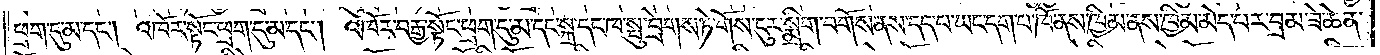ཕྲག་དུ་མ་དང༌། འཁོར་སྟོང་ཕྲག་དུ་མ་དང༌། འཁོར་བརྒྱ་སྟོང་ཕྲག་དུ་མ་དང་སྐྲ་དང་ཁ་སྦུ་བྲེགས་ཏེ་གོས་ངུར་སྨྲིག་བགོས་ནས་དད་པ་ཡང་དག་པ་ཁོ་ནས་ཁྱིམ་ནས་ཁྱིམ་མེད་པར་བྲམ་ཟེ་ཆེན་
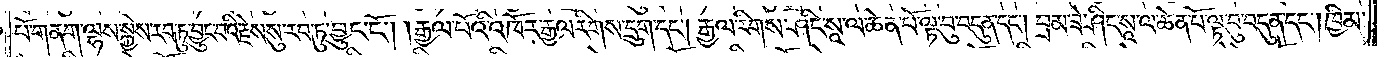པོ་གནག་ལྷས་སྐྱེས་རབ་ཏུ་བྱུང་བའི་རྗེས་སུ་རབ་ཏུ་བྱུང་ངོ༌། །རྒྱལ་པོའི་འཁོར་རྒྱལ་རིགས་དྲུག་དང༌། རྒྱལ་རིགས་ཤིང་སཱ་ལ་ཆེན་པོ་ལྟ་བུ་བདུན་དང༌། བྲམ་ཟེ་ཤིང་སཱ་ལ་ཆེན་པོ་ལྟ་བུ་བདུན་དང༌། ཁྱིམ་
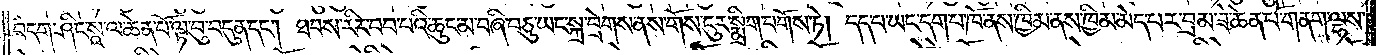བདག་ཤིང་སཱ་ལ་ཆེན་པོ་ལྟ་བུ་བདུན་དང༌། ཐབས་རིར་བབ་པའི་ཆུང་མ་བཞི་བཅུ་ཡང་སྐྲ་བྲེགས་ནས་གོས་ངུར་སྨྲིག་བགོས་ཏེ། དད་པ་ཡང་དག་པ་ཁོ་ནས་ཁྱིམ་ནས་ཁྱིམ་མེད་པར་བྲམ་ཟེ་ཆེན་པོ་གནག་ལྷས་
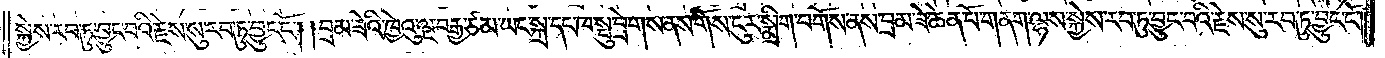སྐྱེས་རབ་ཏུ་བྱུང་བའི་རྗེས་སུ་རབ་ཏུ་བྱུང་ངོ༌། །བྲམ་ཟེའི་ཁྱེའུ་ལྔ་བརྒྱ་ཙམ་ཡང་སྐྲ་དང་ཁ་སྦུ་བྲེགས་ནས་གོས་ངུར་སྨྲིག་བགོས་ནས་བྲམ་ཟེ་ཆེན་པོ་གནག་ལྷས་སྐྱེས་རབ་ཏུ་བྱུང་བའི་རྗེས་སུ་རབ་ཏུ་བྱུང་ངོ༌། །
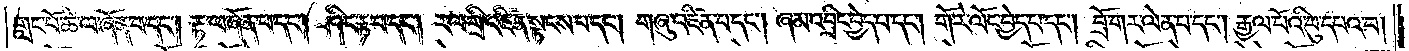གླང་པོ་ཆེ་ལ་ཞོན་པ་དང༌། རྟ་ལ་ཞོན་པ་དང༌། ཤིང་རྟ་པ་དང༌། རལ་གྲི་འཛིན་སྟངས་པ་དང༌། གཞུ་འཛིན་པ་དང༌། ཞམ་འབྲིང་བྱེད་པ་དང༌། གོ་རེ་ལོང་བྱེད་པ་དང༌། བྲོ་གར་ལེན་པ་དང༌། རྒྱལ་པོའི་བུ་དཔའ་བ།
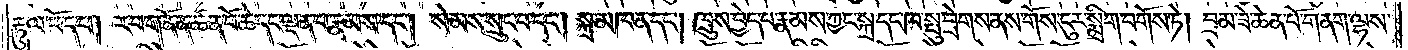རྟུལ་ཕོད་པ། རབ་གནོན་ཚན་པོ་ཆེ་དང་ལྡན་པ་རྣམས་དང༌། སེམས་སྲུང་བ་དང༌། སྐྲ་མཁན་དང༌། ཁྲུས་བྱེད་པ་རྣམས་ཀྱང་སྐྲ་དང་ཁ་སྤུ་བྲེགས་ནས་གོས་ངུར་སྨྲིག་བགོས་ཏེ། བྲམ་ཟེ་ཆེན་པོ་གནག་ལྷས་
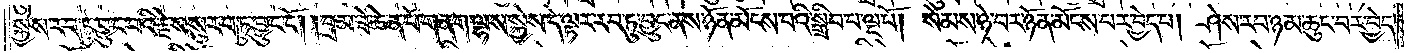སྐྱེས་རབ་ཏུ་བྱུང་བའི་རྗེས་སུ་རབ་ཏུ་བྱུང་ངོ༌། །བྲམ་ཟེ་ཆེན་པོ་གནག་ལྷས་སྐྱེས་དེ་ལྟར་རབ་ཏུ་བྱུང་ནས་ཉོན་མོངས་པའི་སྒྲིབ་པ་ལྔ་པོ། སེམས་ཉེ་བར་ཉོན་མོངས་པར་བྱེད་པ། ཤེས་རབ་ཉམ་ཆུང་བར་བྱེད་
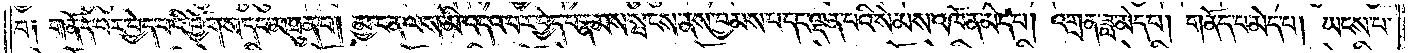པ། གནོད་པར་བྱེད་པའི་ཕྱོགས་དང་མཐུན་པ། མྱ་ངན་ལས་མི་འདའ་བར་བྱེད་པ་རྣམས་སྤངས་ནས་བྱམས་པ་དང་ལྡན་པའི་སེམས་འཁོན་མེད་པ། འགྲན་ཟླ་མེད་པ། གནོད་པ་མེད་པ། ཡངས་པ་
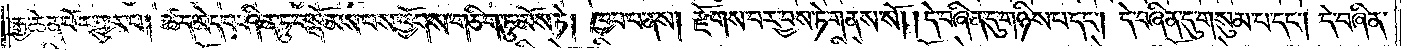རྒྱ་ཆེན་པོར་གྱུར་པ། ཚད་མེད་པ་ཤིན་ཏུ་བསྒོམས་པས་ཕྱོགས་གཅིག་ཏུ་མོས་ཏེ། ཁྱབ་པ་ནས། རྫོགས་པར་བྱས་ཏེ་གནས་སོ། །དེ་བཞིན་དུ་གཉིས་པ་དང༌། དེ་བཞིན་དུ་གསུམ་པ་དང༌། དེ་བཞིན་
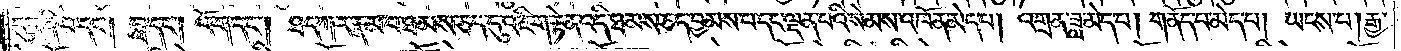དུ་བཞི་པ་དང༌། བླ་དང༌། འོག་དང༌། ཐད་ཀར་རྣམ་པ་ཐམས་ཅད་དུ་འཇིག་རྟེན་འདི་ཐམས་ཅད་བྱམས་པ་དང་ལྡན་པའི་སེམས་འཁོན་མེད་པ། འགྲན་ཟླ་མེད་པ། གནོད་པ་མེད་པ། ཡངས་པ། རྒྱ་
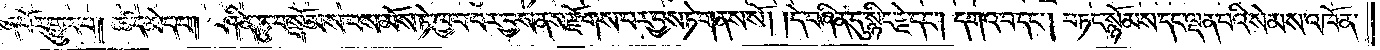ཆེན་པོར་གྱུར་པ། ཚད་མེད་པ། ཤིན་ཏུ་བསྒོམས་པས་མོས་ཏེ་ཁྱབ་པར་བྱས་ནས་རྫོགས་པར་བྱས་ཏེ་གནས་སོ། །དེ་བཞིན་དུ་སྙིང་རྗེ་དང༌། དགའ་བ་དང༌། བཏང་སྙོམས་དང་ལྡན་པའི་སེམས་འཁོན་
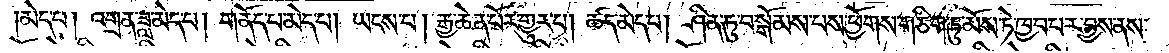མེད་པ། འགྲན་ཟླ་མེད་པ། གནོད་པ་མེད་པ། ཡངས་པ། རྒྱ་ཆེན་པོར་གྱུར་པ། ཚད་མེད་པ། ཤིན་ཏུ་བསྒོམས་པས་ཕྱོགས་གཅིག་ཏུ་མོས་ཏེ་ཁྱབ་པར་བྱས་ནས་
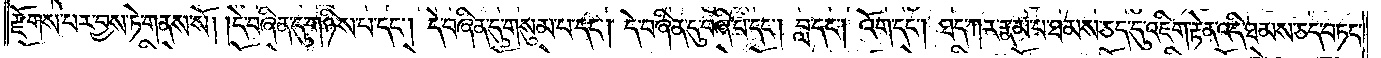རྫོགས་པར་བྱས་ཏེ་གནས་སོ། །དེ་བཞིན་དུ་གཉིས་པ་དང༌། དེ་བཞིན་དུ་གསུམ་པ་དང༌། དེ་བཞིན་དུ་བཞི་པ་དང༌། བླ་དང༌། འོག་དང༌། ཐད་ཀར་རྣམ་པ་ཐམས་ཅད་དུ་འཇིག་རྟེན་འདི་ཐམས་ཅད་བཏང་
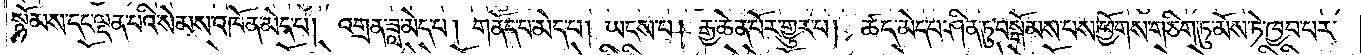སྙོམས་དང་ལྡན་པའི་སེམས་འཁོན་མེད་པ། འགྲན་ཟླ་མེད་པ། གནོད་པ་མེད་པ། ཡངས་པ། རྒྱ་ཆེན་པོར་གྱུར་པ། ཚད་མེད་པ་ཤིན་ཏུ་བསྒོམས་པས་ཕྱོགས་གཅིག་ཏུ་མོས་ཏེ་ཁྱབ་པར་
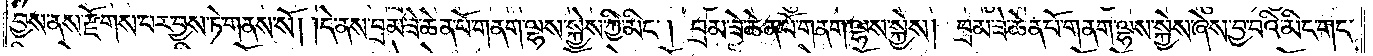བྱས་ནས་རྫོགས་པར་བྱས་ཏེ་གནས་སོ། །དེ་ནས་བྲམ་ཟེ་ཆེན་པོ་གནག་ལྷས་སྐྱེས་ཀྱི་མིང༌། བྲམ་ཟེ་ཆེན་པོ་གནག་ལྷས་སྐྱེས། བྲམ་ཟེ་ཆེན་པོ་གནག་ལྷས་སྐྱེས་ཞེས་བྱ་བའི་མིང་གང་
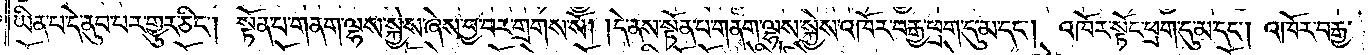ཡིན་པ་དེ་ནུབ་པར་གྱུར་ཅིང༌། སྟོན་པ་གནག་ལྷས་སྐྱེས་ཞེས་བྱ་བར་གྲགས་སོ། །དེ་ནས་སྟོན་པ་གནག་ལྷས་སྐྱེས་འཁོར་བརྒྱ་ཕྲག་དུ་མ་དང༌། འཁོར་སྟོང་ཕྲག་དུ་མ་དང༌། འཁོར་བརྒྱ་
